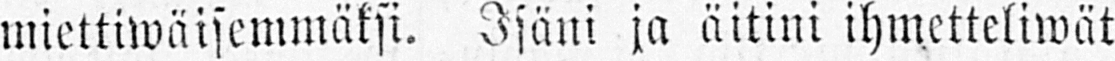miettiwäisemmäksi. Isäni ja äitini ihmetteliwät
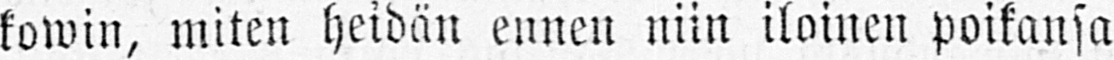kowin, miten heidän ennen niin iloinen poikansa
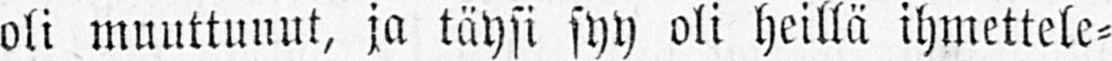oli muuttunut, ja täysi syy oli heillä ihmettele-
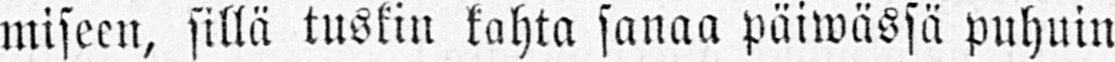miseen, sillä tuskin kahta sanaa päiwässä puhuin
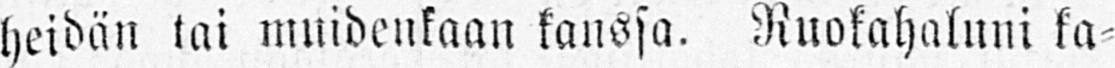heidän tai muidenkaan kanssa. Ruokahaluni ka-
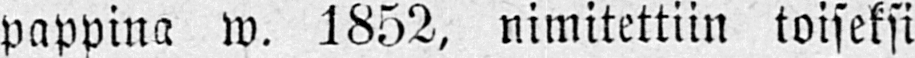pappina w. 1852, nimitettiin toiseksi
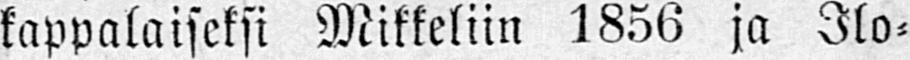kappalaiseksi Mikkeliin 1856 ja Ilo-
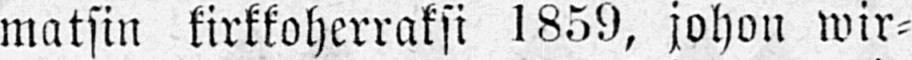matsin kirkkoherraksi 1859, johon wir-
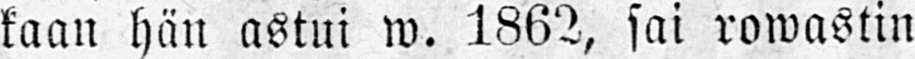kaan hän astui w. 1862, sai rowastin
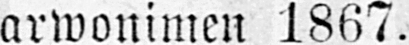arwonimen 1867.
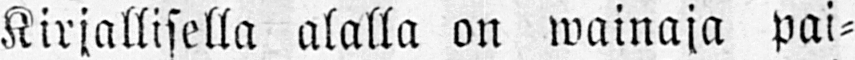Kirjallisella alalla on wainaja pai-
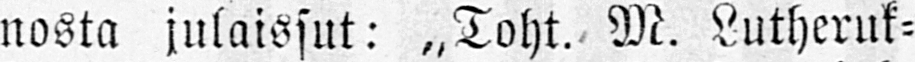nosta julaissut.- „Toht. M. Lutheruk-
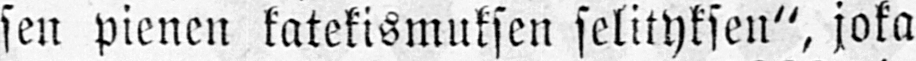sen pienen katekismuksen selityksen", joka
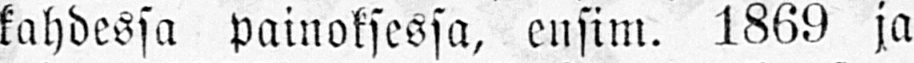kahdessa painoksessa, ensim. 1869 ja
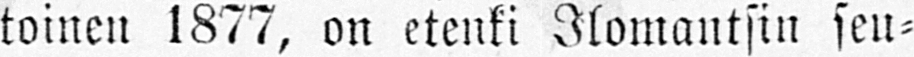toinen 1877, on etenki Ilomantsin seu-
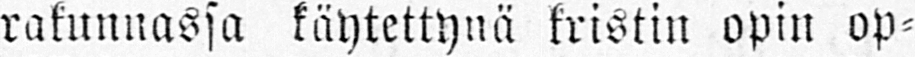rakunnassa käytettynä kristin opin op-
